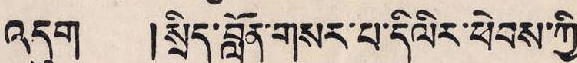འདུག །སྲིད་བློན་གསར་པ་དིལིར་ཕེབས་ཀྱི་
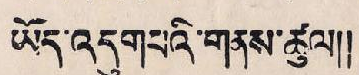ཡོད་འདུགཔའི་གནས་ཚུལ།།
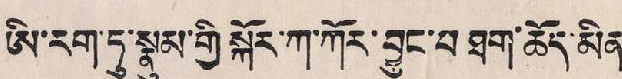ཨི་རག་ཏུ་སྣུམ་གྱི་སྐོར་ཀ་ཀོང་བྱུང་བ ཐག་ཆོད་མིན་
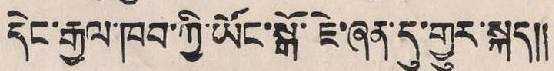དེང་རྒྱལ་ཁབ་ཀྱི་ཡོང་སྒོ་ཇེ་ཞན་དུ་གྱུར་སྐད།།
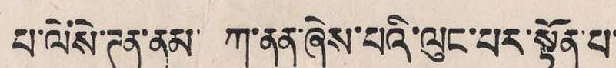པ་ལེ་སེ་ཌན་ནམ་ ཀ་ནན་ཞེས་པའི་ལུང་པར་སྟོན་པ་
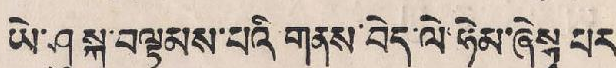ཡེ་ཤུ སྐུ་བལྟམས་པའི གནས་བདེ་ལེ་ཧེམ་ཞེས པར་
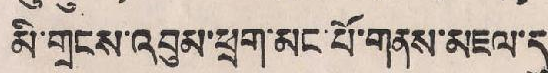མི་གྲངས་འབུམ་ཕྲག་མང་པོ་གནས་མཇལ་དུ་
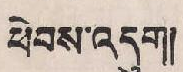ཕེབས་འདུག།
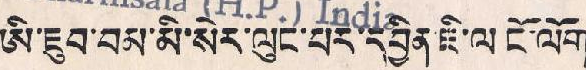ཨི་ཇུབ་བམ་མི་སེར་ལུང་པར་དབྱིན་ཇི་ལ ངོ་ལོག་
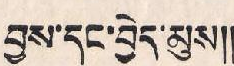བྱས་དང་བྱེད་མུས།།
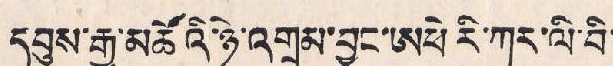དབུས་རྒྱ་མཚོའི་ཉེ་འགྲམ་བྱང་ཨཕེརི་ཀར་ལི་བི་
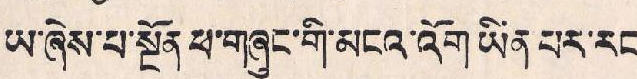ཡ་ཞེས་པ་སྔོན་ཕ་གཞུང་གི་མངའ་འོག་ཡིན་པར་རང་
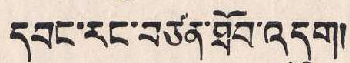དབང་རང་བཙན་ཐོབ་འདུག།
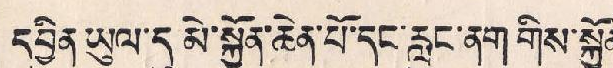དབྱིན་ཡུལ་དུ མེ་སྐྱོན་ཆེན་པོ་དང་རླུང་ནག གིས་སྐྱོན་
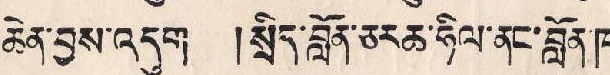ཆེན་བྱས་འདུག །སྲིད་བློན་ཅར ཆ་ཧིལ་ནང་བློན་ཁ་
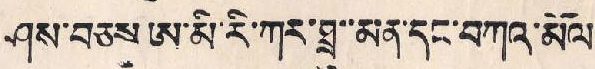ཤས་བཅས ཨ་མི་རི་ཀར་ཐྲུ་མན་དང་བཀའ་མོལ་
